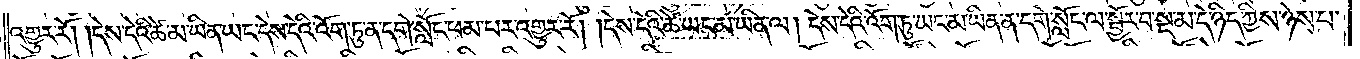འགྱུར་རོ། །དེས་དེའི་ཚེ་མ་ཡིན་ཡང་དེས་དེའི་འོག་ཏུ་ན་དགེ་སློང་ཕམ་པར་འགྱུར་རོ། །དེས་དེའི་ཚེ་ཡང་མ་ཡིན་ལ། དེས་དེའི་འོག་ཏུ་ཡང་མ་ཡིན་ན་དགེ་སློང་ལ་སྦྱོར་བ་སྔ་མ་དེ་ཉིད་ཀྱིས་ཉེས་པ་
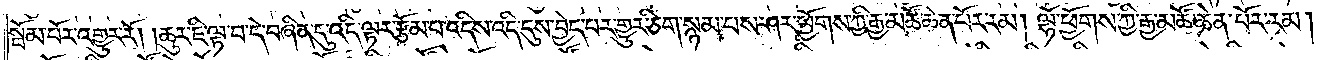སྦོམ་པོར་འགྱུར་རོ། །ཆུར་ཇི་ལྟ་བ་དེ་བཞིན་དུ་འདི་ལྟར་རྩོམ་པ་འདིས་འདི་དུས་བྱེད་པར་གྱུར་ཅིག་སྙམ་པས་ཤར་ཕྱོགས་ཀྱི་རྒྱ་མཚོ་ཆེན་པོར་རམ། ལྷོ་ཕྱོགས་ཀྱི་རྒྱ་མཚོ་ཆེན་པོར་རམ།
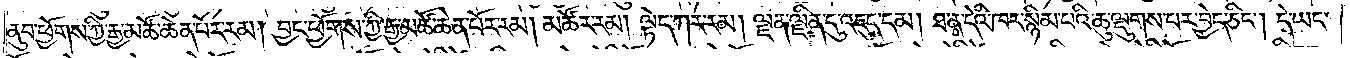ནུབ་ཕྱོགས་ཀྱི་རྒྱ་མཚོ་ཆེན་པོར་རམ། བྱང་ཕྱོགས་ཀྱི་རྒྱ་མཚོ་ཆེན་པོར་རམ། མཚོར་རམ། ལྟེང་ཀར་རམ། ལྗན་ལྗིན་དུ་འཇུད་དམ། ཐ་ན་དེའི་ཁར་སྙིམ་པའི་ཆུ་ལྡུགས་པར་བྱེད་ཅིང༌། དེ་ཡང་
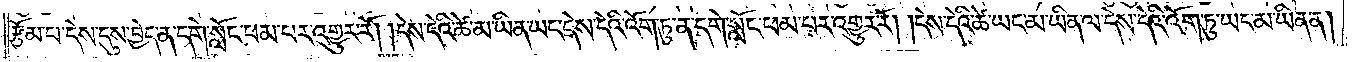རྩོམ་པ་དེས་དུས་བྱེད་ན་དགེ་སློང་ཕམ་པར་འགྱུར་རོ། །དེས་དེའི་ཚེ་མ་ཡིན་ཡང་དེས་དེའི་འོག་ཏུ་ན་དགེ་སློང་ཕམ་པར་འགྱུར་རོ། །དེས་དེའི་ཚེ་ཡང་མ་ཡིན་ལ་དེས་དེའི་འོག་ཏུ་ཡང་མ་ཡིན་ན།
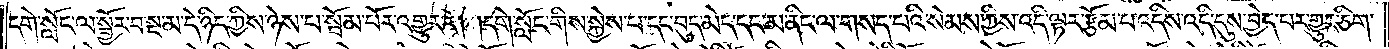དགེ་སློང་ལ་སྦྱོར་བ་སྔ་མ་དེ་ཉིད་ཀྱིས་ཉེས་པ་སྦོམ་པོར་འགྱུར་རོ། །དགེ་སློང་གིས་སྐྱེས་པ་དང་བུད་མེད་དང་མ་ནིང་ལ་གསད་པའི་སེམས་ཀྱིས་འདི་ལྟར་རྩོམ་པ་འདིས་འདི་དུས་བྱེད་པར་གྱུར་ཅིག་
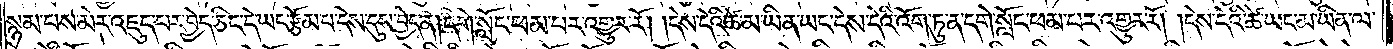སྙམ་པས་མེར་འཇུད་པར་བྱེད་ཅིང་དེ་ཡང་རྩོམ་པ་དེས་དུས་བྱེད་ན། དགེ་སློང་ཕམ་པར་འགྱུར་རོ། །དེས་དེའི་ཚེ་མ་ཡིན་ཡང་དེས་དེའི་འོག་ཏུ་ན་དགེ་སློང་ཕམ་པར་འགྱུར་རོ། །དེས་དེའི་ཚེ་ཡང་མ་ཡིན་ལ་
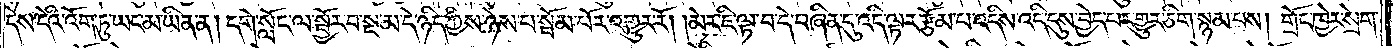དེས་དེའི་འོག་ཏུ་ཡང་མ་ཡིན་ན། དགེ་སློང་ལ་སྦྱོར་བ་སྔ་མ་དེ་ཉིད་ཀྱིས་ཉེས་པ་སྦོམ་པོར་འགྱུར་རོ། །མེར་ཇི་ལྟ་བ་དེ་བཞིན་དུ་འདི་ལྟར་རྩོམ་པ་འདིས་འདི་དུས་བྱེད་པར་གྱུར་ཅིག་སྙམ་པས། གྲོང་ཁྱེར་སྲེག་
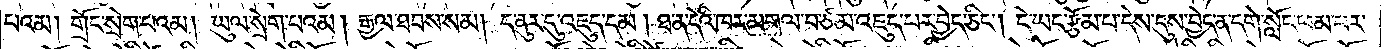པའམ། གྲོང་སྲེག་པའམ། ཡུལ་སྲེག་པའམ། རྒྱལ་ཐབས་སམ། ད་ནུར་དུ་འཇུད་དམ། ཐ་ན་དེའི་ཁར་མགལ་བ་ཙམ་འཇུད་པར་བྱེད་ཅིང༌། དེ་ཡང་རྩོམ་པ་དེས་དུས་བྱེད་ན་དགེ་སློང་ཕམ་པར་
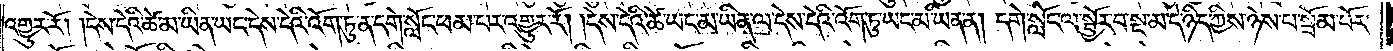འགྱུར་རོ། །དེས་དེའི་ཚེ་མ་ཡིན་ཡང་དེས་དེའི་འོག་ཏུ་ན་དགེ་སློང་ཕམ་པར་འགྱུར་རོ། །དེས་དེའི་ཚེ་ཡང་མ་ཡིན་ལ་དེས་དེའི་འོག་ཏུ་ཡང་མ་ཡིན་ན། དགེ་སློང་ལ་སྦྱོར་བ་སྔ་མ་དེ་ཉིད་ཀྱིས་ཉེས་པ་སྦོམ་པོར་
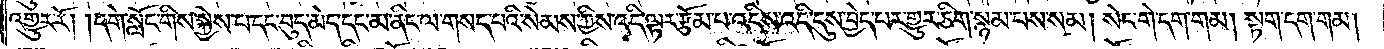འགྱུར་རོ། །དགེ་སློང་གིས་སྐྱེས་པ་དང་བུད་མེད་དང་མ་ནིང་ལ་གསད་པའི་སེམས་ཀྱིས་འདི་ལྟར་རྩོམ་པ་འདིས་འདི་དུས་བྱེད་པར་གྱུར་ཅིག་སྙམ་པས་སམ། སེང་གེ་དག་གམ། སྟག་དག་གམ།
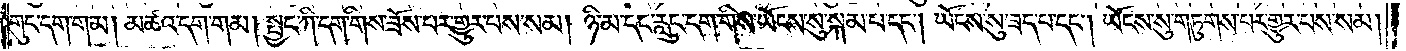གུང་དག་གམ། མཚའ་དག་གམ། སྤྱང་ཀི་དག་གིས་ཟོས་པར་གྱུར་པས་སམ། ཉི་མ་དང་རླུང་དག་གིས་ཡོངས་སུ་སྐམ་པ་དང༌། ཡོངས་སུ་ཟད་པ་དང༌། ཡོངས་སུ་གཏུགས་པར་གྱུར་པས་སམ།
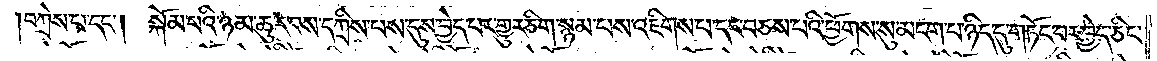བཀྲེས་པ་དང༌། སྐོམ་པའི་ཉམ་ཆུང་བས་དཀྲིས་པས་དུས་བྱེད་པར་གྱུར་ཅིག་སྙམ་པས་འཇིགས་པ་དང་བཅས་པའི་ཕྱོགས་སུ་མངག་པ་ཉིད་དུ་གཏོང་བར་བྱེད་ཅིང་
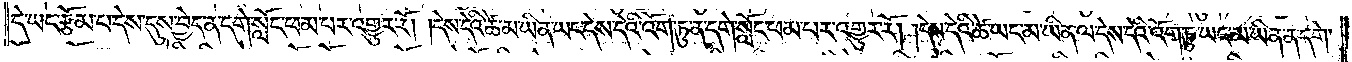དེ་ཡང་རྩོམ་པ་དེས་དུས་བྱེད་ན་དགེ་སློང་ཕམ་པར་འགྱུར་རོ། །དེས་དེའི་ཚེ་མ་ཡིན་ཡང་དེས་དེའི་འོག་ཏུ་ན་དགེ་སློང་ཕམ་པར་འགྱུར་རོ། །དེས་དེའི་ཚེ་ཡང་མ་ཡིན་ལ་དེས་དེའི་འོག་ཏུ་ཡང་མ་ཡིན་ན་དགེ་
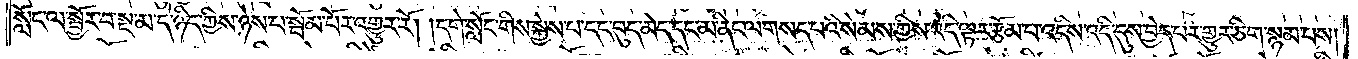སློང་ལ་སྦྱོར་བ་སྔ་མ་དེ་ཉིད་ཀྱིས་ཉེས་པ་སྦོམ་པོར་འགྱུར་རོ། །དགེ་སློང་གིས་སྐྱེས་པ་དང་བུད་མེད་དང་མ་ནིང་ལ་གསད་པའི་སེམས་ཀྱིས་འདི་ལྟར་རྩོམ་པ་འདིས་འདི་དུས་བྱེད་པར་གྱུར་ཅིག་སྙམ་པས།
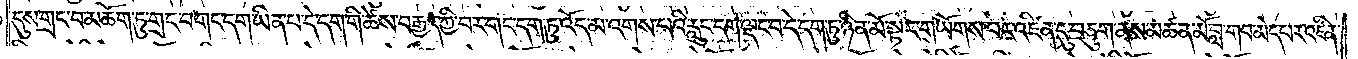དུས་གྲང་བ་མཆོག་ཏུ་གྲང་བ་གང་དག་ཡིན་པ་དེ་དག་གི་ཚེས་བརྒྱད་ཀྱི་བར་གང་དག་ཏུ་འོད་མ་འགས་པའི་རླུང་དག་ལྡང་བ་དེ་དག་ཏུ་ཉིན་མོ་སྟེང་གཡོགས་པར་འཛིན་དུ་བཅུག་ནས་མཚན་མོ་བླ་གབ་མེད་པར་འཛིན་
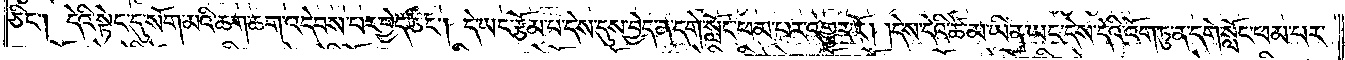ཅིང༌། དེའི་སྟེང་དུ་སོག་མའི་ཆག་ཆག་འདེབས་པར་བྱེད་ཅིང༌། དེ་ཡང་རྩོམ་པ་དེས་དུས་བྱེད་ན་དགེ་སློང་ཕམ་པར་འགྱུར་རོ། །དེས་དེའི་ཚེ་མ་ཡིན་ཡང་དེས་དེའི་འོག་ཏུ་ན་དགེ་སློང་ཕམ་པར་
